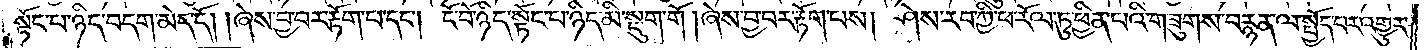སྟོང་པ་ཉིད་བདག་མེད་དོ། །ཞེས་བྱ་བར་རྟོག་པ་དང༌། ངོ་བོ་ཉིད་སྟོང་པ་ཉིད་མི་སྡུག་གོ །ཞེས་བྱ་བར་རྟོག་པས། ཤེས་རབ་ཀྱི་ཕ་རོལ་ཏུ་ཕྱིན་པའི་གཟུགས་བརྙན་ལ་སྤྱོད་པར་འགྱུར་
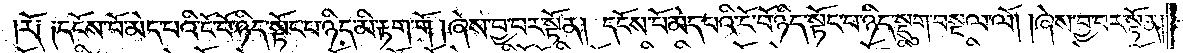རོ༑ ༑དངོས་པོ་མེད་པའི་ངོ་བོ་ཉིད་སྟོང་པ་ཉིད་མི་རྟག་གོ །ཞེས་བྱ་བར་སྟོན། དངོས་པོ་མེད་པའི་ངོ་བོ་ཉིད་སྟོང་པ་ཉིད་སྡུག་བསྔལ་ལོ། །ཞེས་བྱ་བར་སྟོན།
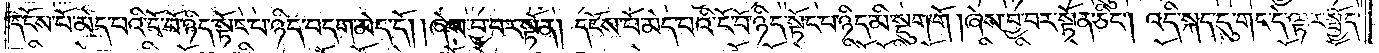དངོས་པོ་མེད་པའི་ངོ་བོ་ཉིད་སྟོང་པ་ཉིད་བདག་མེད་དོ། །ཞེས་བྱ་བར་སྟོན། དངོས་པོ་མེད་པའི་ངོ་བོ་ཉིད་སྟོང་པ་ཉིད་མི་སྡུག་གོ །ཞེས་བྱ་བར་སྟོན་ཅིང༌། འདི་སྐད་དུ་གང་དེ་ལྟར་སྤྱོད་
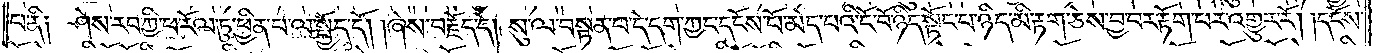པ་ནི༑ ཤེས་རབ་ཀྱི་ཕ་རོལ་ཏུ་ཕྱིན་པ་ལ་སྤྱོད་དོ། །ཞེས་བརྗོད་དེ། སུ་ལ་བསྟན་པ་དེ་དག་ཀྱང་དངོས་པོ་མེད་པའི་ངོ་བོ་ཉིད་སྟོང་པ་ཉིད་མི་རྟག་ཅེས་བྱ་བར་རྟོག་པར་འགྱུར་རོ། །དངོས་
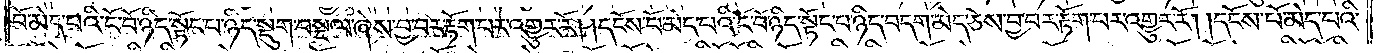པོ་མེད་པའི་ངོ་བོ་ཉིད་སྟོང་པ་ཉིད་སྡུག་བསྔལ་ཞེས་བྱ་བར་རྟོག་པར་འགྱུར་རོ། །དངོས་པོ་མེད་པའི་ངོ་བོ་ཉིད་སྟོང་པ་ཉིད་བདག་མེད་ཅེས་བྱ་བར་རྟོག་པར་འགྱུར་རོ། །དངོས་པོ་མེད་པའི་
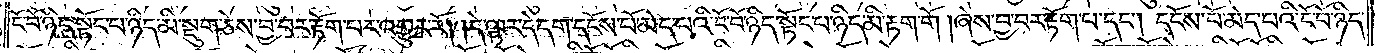ངོ་བོ་ཉིད་སྟོང་པ་ཉིད་མི་སྡུག་ཅེས་བྱ་བར་རྟོག་པར་འགྱུར་རོ། །དེ་ལྟར་དེ་དག་དངོས་པོ་མེད་པའི་ངོ་བོ་ཉིད་སྟོང་པ་ཉིད་མི་རྟག་གོ །ཞེས་བྱ་བར་རྟོག་པ་དང༌། དངོས་པོ་མེད་པའི་ངོ་བོ་ཉིད་
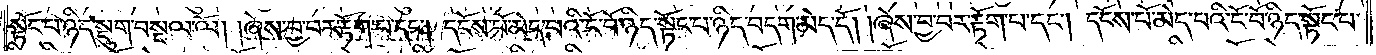སྟོང་པ་ཉིད་སྡུག་བསྔལ་ལོ། །ཞེས་བྱ་བར་རྟོག་པ་དང༌། དངོས་པོ་མེད་པའི་ངོ་བོ་ཉིད་སྟོང་པ་ཉིད་བདག་མེད་དོ། །ཞེས་བྱ་བར་རྟོག་པ་དང༌། དངོས་པོ་མེད་པའི་ངོ་བོ་ཉིད་སྟོང་པ་
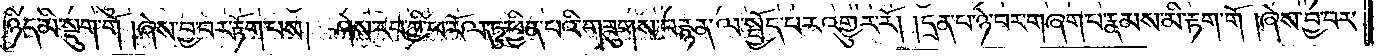ཉིད་མི་སྡུག་གོ །ཞེས་བྱ་བར་རྟོག་པས། ཤེས་རབ་ཀྱི་ཕ་རོལ་ཏུ་ཕྱིན་པའི་གཟུགས་བརྙན་ལ་སྤྱོད་པར་འགྱུར་རོ། །དྲན་པ་ཉེ་བར་གཞག་པ་རྣམས་མི་རྟག་གོ །ཞེས་བྱ་བར་
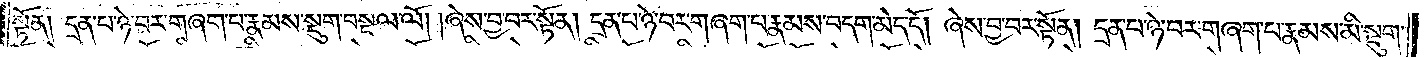སྟོན། དྲན་པ་ཉེ་བར་གཞག་པ་རྣམས་སྡུག་བསྔལ་ལོ། །ཞེས་བྱ་བར་སྟོན། དྲན་པ་ཉེ་བར་གཞག་པ་རྣམས་བདག་མེད་དོ། །ཞེས་བྱ་བར་སྟོན། དྲན་པ་ཉེ་བར་གཞག་པ་རྣམས་མི་སྡུག་
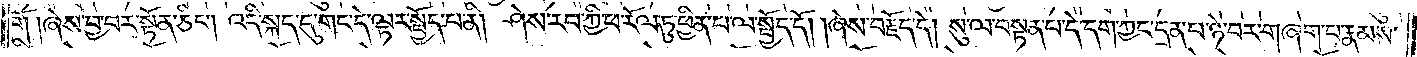གོ །ཞེས་བྱ་བར་སྟོན་ཅིང༌། འདི་སྐད་དུ་གང་དེ་ལྟར་སྤྱོད་པ་ནི། ཤེས་རབ་ཀྱི་ཕ་རོལ་ཏུ་ཕྱིན་པ་ལ་སྤྱོད་དོ། །ཞེས་བརྗོད་དེ། སུ་ལ་བསྟན་པ་དེ་དག་ཀྱང་དྲན་པ་ཉེ་བར་གཞག་པ་རྣམས་
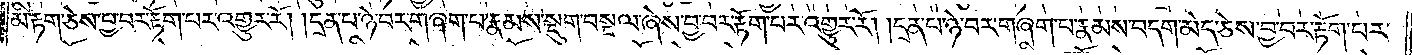མི་རྟག་ཅེས་བྱ་བར་རྟོག་པར་འགྱུར་རོ། །དྲན་པ་ཉེ་བར་གཞག་པ་རྣམས་སྡུག་བསྔལ་ཞེས་བྱ་བར་རྟོག་པར་འགྱུར་རོ། །དྲན་པ་ཉེ་བར་གཞག་པ་རྣམས་བདག་མེད་ཅེས་བྱ་བར་རྟོག་པར་
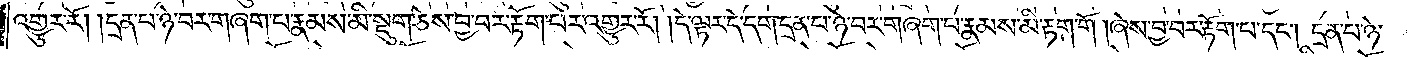འགྱུར་རོ། །དྲན་པ་ཉེ་བར་གཞག་པ་རྣམས་མི་སྡུག་ཅེས་བྱ་བར་རྟོག་པར་འགྱུར་རོ། །དེ་ལྟར་དེ་དག་དྲན་པ་ཉེ་བར་གཞག་པ་རྣམས་མི་རྟག་གོ །ཞེས་བྱ་བར་རྟོག་པ་དང༌། དྲན་པ་ཉེ་
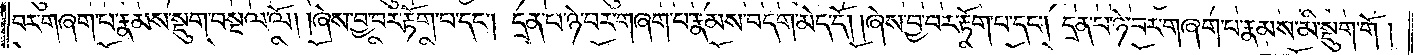བར་གཞག་པ་རྣམས་སྡུག་བསྔལ་ལོ། །ཞེས་བྱ་བར་རྟོག་པ་དང༌། དྲན་པ་ཉེ་བར་གཞག་པ་རྣམས་བདག་མེད་དོ། །ཞེས་བྱ་བར་རྟོག་པ་དང༌། དྲན་པ་ཉེ་བར་གཞག་པ་རྣམས་མི་སྡུག་གོ།
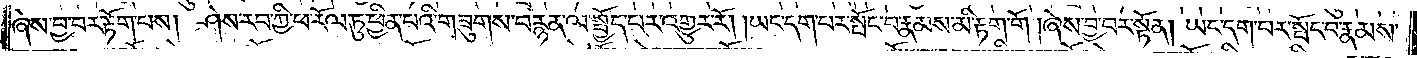ཞེས་བྱ་བར་རྟོག་པས། ཤེས་རབ་ཀྱི་ཕ་རོལ་ཏུ་ཕྱིན་པའི་གཟུགས་བརྙན་ལ་སྤྱོད་པར་འགྱུར་རོ། །ཡང་དག་པར་སྤོང་བ་རྣམས་མི་རྟག་གོ །ཞེས་བྱ་བར་སྟོན། ཡང་དག་པར་སྤོང་བ་རྣམས་
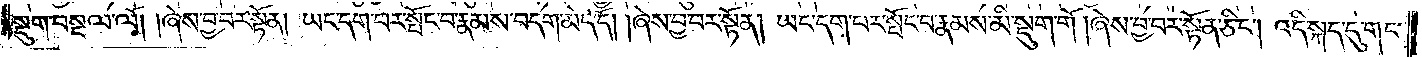སྡུག་བསྔལ་ལོ། །ཞེས་བྱ་བར་སྟོན། ཡང་དག་པར་སྤོང་བ་རྣམས་བདག་མེད་དོ། །ཞེས་བྱ་བར་སྟོན། ཡང་དག་པར་སྤོང་བ་རྣམས་མི་སྡུག་གོ །ཞེས་བྱ་བར་སྟོན་ཅིང༌། འདི་སྐད་དུ་གང་
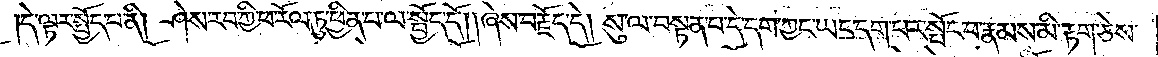དེ་ལྟར་སྤྱོད་པ་ནི། ཤེས་རབ་ཀྱི་ཕ་རོལ་ཏུ་ཕྱིན་པ་ལ་སྤྱོད་དོ། །ཞེས་བརྗོད་དེ། སུ་ལ་བསྟན་པ་དེ་དག་ཀྱང་ཡང་དག་པར་སྤོང་བ་རྣམས་མི་རྟོག་ཅེས་
